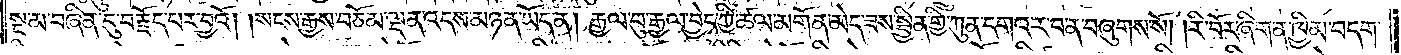སྔ་མ་བཞིན་དུ་བརྗོད་པར་བྱའོ། །སངས་རྒྱས་བཅོམ་ལྡན་འདས་མཉན་ཡོད་ན། རྒྱལ་བུ་རྒྱལ་བྱེད་ཀྱི་ཚལ་མགོན་མེད་ཟས་སྦྱིན་གྱི་ཀུན་དགའ་ར་བ་ན་བཞུགས་སོ། །རི་བོར་ཞིག་ན་ཁྱིམ་བདག་
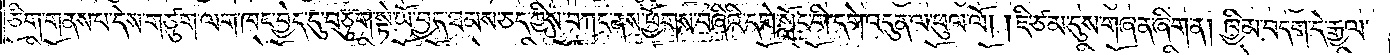ཅིག་གནས་པ་དེས་གཙུག་ལག་ཁང་བྱེད་དུ་བཅུག་སྟེ་ཡོ་བྱད་ཐམས་ཅད་ཀྱིས་བཀང་ནས་ཕྱོགས་བཞིའི་དགེ་སློང་གི་དགེ་འདུན་ལ་ཕུལ་ལོ། །ཇི་ཙམ་དུས་གཞན་ཞིག་ན། ཁྱིམ་བདག་དེ་རྒྱལ་
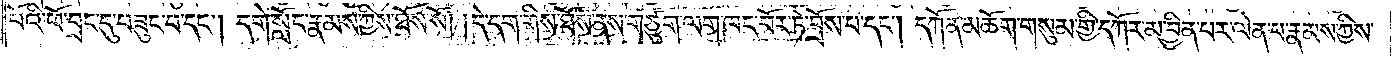པོའི་ཕོ་བྲང་དུ་བཟུང་བ་དང༌། དགེ་སློང་རྣམས་ཀྱིས་ཐོས་སོ། །དེ་དག་གིས་ཐོས་ནས་གཙུག་ལག་ཁང་བོར་ཏེ་བྲོས་པ་དང༌། དཀོན་མཆོག་གསུམ་གྱི་དཀོར་མ་བྱིན་པར་ལེན་པ་རྣམས་ཀྱིས་
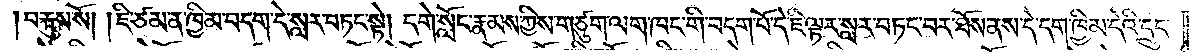བརྐུས་སོ། །ཇི་ཙམ་ན་ཁྱིམ་བདག་དེ་སླར་བཏང་སྟེ། དགེ་སློང་རྣམས་ཀྱིས་གཙུག་ལག་ཁང་གི་བདག་པོ་དེ་ཇི་ལྟར་སླར་བཏང་བར་ཐོས་ནས་དེ་དག་ཁྱིམ་དེའི་དྲུང་
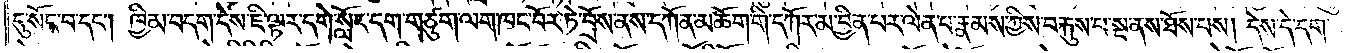དུ་སོང་བ་དང༌། ཁྱིམ་བདག་དེས་ཇི་ལྟར་དགེ་སློང་དག་གཙུག་ལག་ཁང་བོར་ཏེ་བྲོས་ནས་དཀོན་མཆོག་གི་དཀོར་མ་བྱིན་པར་ལེན་པ་རྣམས་ཀྱིས་བརྐུས་པ་སྔ་ནས་ཐོས་པས། དེས་དེ་དག་
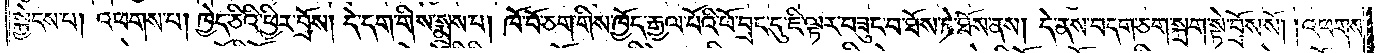སྐྱེངས་པ། འཕགས་པ། ཁྱེད་ཅིའི་ཕྱིར་བྲོས། དེ་དག་གིས་སྨྲས་པ། ཁོ་བོ་ཅག་གིས་ཁྱོད་རྒྱལ་པོའི་ཕོ་བྲང་དུ་ཇི་ལྟར་བཟུང་བ་ཐོས་ཏེ་ཐོས་ནས། དེ་ནས་བདག་ཅག་སྐྲག་སྟེ་བྲོས་སོ། །འཕགས་
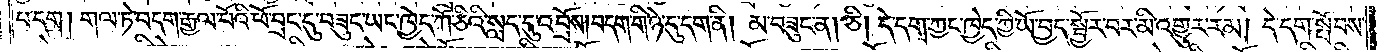པ་དག །གལ་ཏེ་བདག་རྒྱལ་པོའི་ཕོ་བྲང་དུ་བཟུང་ཡང་ཁྱེད་ཀོ་ཅིའི་སླད་དུ་འབྲོས། བདག་གི་ཉེ་དུ་དག་ནི། མ་བཟུང་ན། ཅི། དེ་དག་ཀྱང་ཁྱེད་ཀྱི་ཡོ་བྱད་སྦྱོར་བར་མི་འགྱུར་རམ། དེ་དག་སྤོབས་
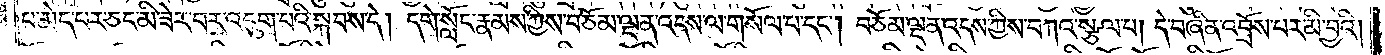པ་མེད་པར་ཅང་མི་ཟེར་བར་འདུག་པའི་སྐབས་དེ། དགེ་སློང་རྣམས་ཀྱིས་བཅོམ་ལྡན་འདས་ལ་གསོལ་པ་དང༌། བཅོམ་ལྡན་འདས་ཀྱིས་བཀའ་སྩལ་པ། དེ་བཞིན་འབྲོས་པར་མི་བྱའི།
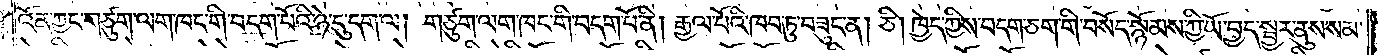འོན་ཀྱང་གཙུག་ལག་ཁང་གི་བདག་པོའི་ཉེ་དུ་དག་ལ། གཙུག་ལག་ཁང་གི་བདག་པོ་ནི། རྒྱལ་པོའི་ཁབ་ཏུ་བཟུང་ན། ཅི། ཁྱེད་ཀྱིས་བདག་ཅག་གི་བསོད་སྙོམས་ཀྱི་ཡོ་བྱད་སྦྱར་ནུས་སམ་
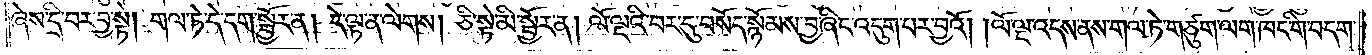ཞེས་དྲི་བར་བྱ་སྟེ། གལ་ཏེ་དེ་དག་སྦྱོར་ན། དེ་ལྟ་ན་ལེགས། ཅི་སྟེ་མི་སྦྱོར་ན། ལོ་ལྔའི་བར་དུ་བསོད་སྙོམས་བྱ་ཞིང་འདུག་པར་བྱའོ། །ལོ་ལྔ་འདས་ནས་གལ་ཏེ་གཙུག་ལག་ཁང་གི་བདག་
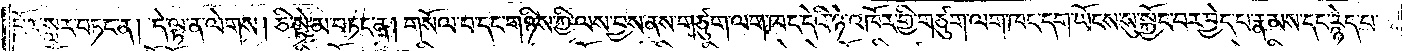པོར་སླར་བཏང་ན། དེ་ལྟ་ན་ལེགས། ཅི་སྟེ་མ་བཏང་ན། གསོལ་བ་དང་གཉིས་ཀྱི་ལས་བྱས་ནས་གཙུག་ལག་ཁང་དེའི་ཉེ་འཁོར་གྱི་གཙུག་ལག་ཁང་དག་ཡོངས་སུ་སྐྱོང་བར་བྱེད་པ་རྣམས་དང་རྙེད་པ་
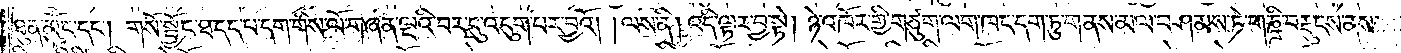ཐུན་མོང་དང༌། གསོ་སྦྱོང་ཐ་དད་པ་དག་གིས་ལོ་གཞན་ལྔའི་བར་དུ་འདུག་པར་བྱའོ། །ལས་ནི། འདི་ལྟར་བྱ་སྟེ། ཉེ་འཁོར་གྱི་གཙུག་ལག་ཁང་དག་ཏུ་གནས་མལ་བཤམས་ཏེ་གཎྜི་བརྡུངས་ནས་
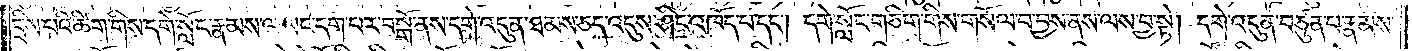དྲིས་པའི་ཚིག་གིས་དགེ་སློང་རྣམས་ལ་ཡང་དག་པར་བསྒོ་ནས་དགེ་འདུན་ཐམས་ཅད་འདུས་ཤིང་འཁོད་པ་དང༌། དགེ་སློང་གཅིག་གིས་གསོལ་བ་བྱས་ནས་ལས་བྱ་སྟེ། དགེ་འདུན་བཙུན་པ་རྣམས་
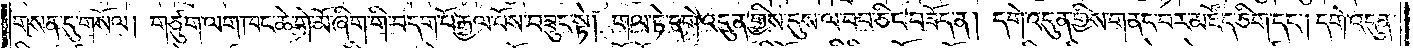གསན་དུ་གསོལ། གཙུག་ལག་ཁང་ཆེ་གེ་མོ་ཞིག་གི་བདག་པོ་རྒྱལ་པོས་བཟུང་སྟེ། གལ་ཏེ་དགེ་འདུན་གྱིས་དུས་ལ་བབ་ཅིང་བཟོད་ན། དགེ་འདུན་གྱིས་གནང་བར་མཛོད་ཅིག་དང༌། དགེ་འདུན་
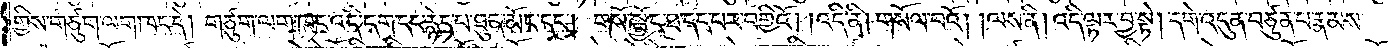གྱིས་གཙུག་ལག་ཁང་དེ། གཙུག་ལག་ཁང་འདི་དག་དང་རྙེད་པ་ཐུན་མོང་དང༌། གསོ་སྦྱོང་ཐ་དད་པར་བགྱིའོ། །འདི་ནི། གསོལ་བའོ། །ལས་ནི། འདི་ལྟར་བྱ་སྟེ། དགེ་འདུན་བཙུན་པ་རྣམས་
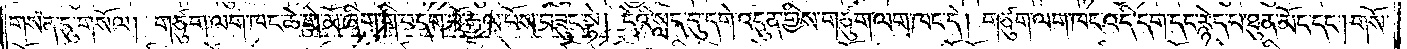གསན་དུ་གསོལ། གཙུག་ལག་ཁང་ཆེ་གེ་མོ་ཞིག་གི་བདག་པོ་རྒྱལ་པོས་བཟུང་སྟེ། དེའི་སླད་དུ་དགེ་འདུན་གྱིས་གཙུག་ལག་ཁང་དེ། གཙུག་ལག་ཁང་འདི་དག་དང་རྙེད་པ་ཐུན་མོང་དང༌། གསོ་
